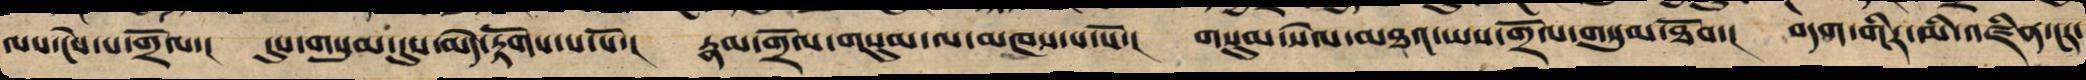ལས་ངེས་པ་གྲོལ་། དུས་གསུམ་དུས་མེད་རྟོགས་པ་པོ་། རྣམ་གྲོལ་གསུམ་ལ་མཁས་པ་པོ་། གསུམ་སེལ་མཐའ་ཡས་གྲོལ་གསུམ་ཐོབ་། བདག་གིར་མི་འཛིན་ངར་
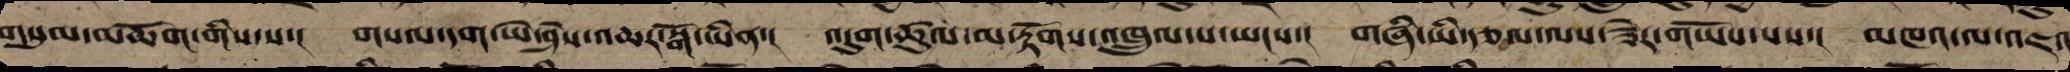གསུམ་མཆོག་གིས་ས་། གསལ་དག་ཡེ་ཤེས་འཆར་སྒོ་ཡིན་། འདུག་ཚུལ་མ་རྟོགས་འཁྲུལ་པ་ཡངས་། གཞི་ཡི་རྩལ་ལས་ཟེར་གཡོས་པས་། མཁའ་ལ་འཇའ
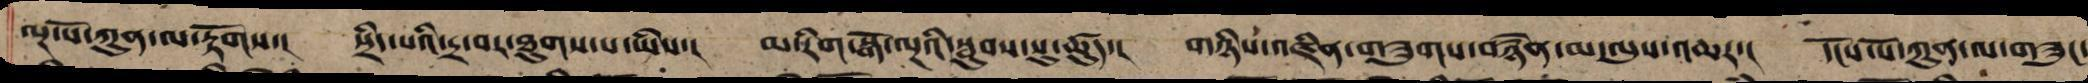ལྔ་པོ་ཀུན་ལ་རྟོགས་། སྲིད་པའི་དྲ་བར་ཐུགས་པ་ཡིས་། མ་རིག་སྒོ་ལྔའི་སྦུབས་སུ་ཚུད་། གཉིས་འཛིན་གཟུགས་བསྙེན་མ་ལུས་འཆར་། དངོས་པོ་ཀུན་ལ་གཟུང་
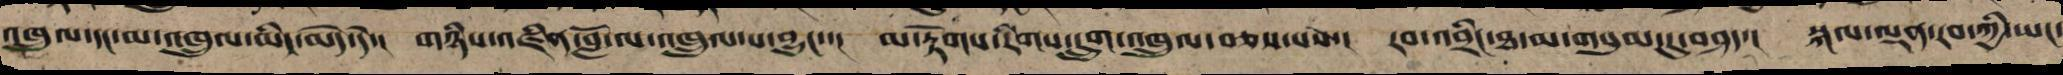འཁྲུལ་དང་མ་འཁྲུལ་མིང་མེད་དེ་། གཉིས་འཛིན་བློ་ལ་འཁྲུལ་པ་བྱུང་་། མ་རྟོགས་རིགས་དྲུག་འཁྲུལ་བཅས་པས་། རབ་འབྲིང་ཐ་མ་གསུམ་དུ་བཤད་། སྐལ་ལྡན་རབ་ཀྱི་ཡང་
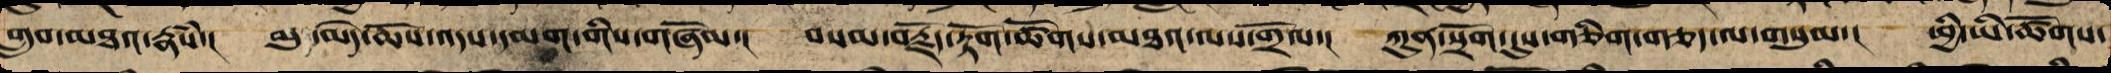གྲུབ་མཐའ་རྣཾས་། མུ་མེད་ཆོས་འདས་དམག་གིས་གཞོམ་། བསམ་བརྗོད་རྟོག་ཚོགས་མཐའ་ལས་གྲོལ་། ཀུན་སྲོག་དུས་གཅིག་གཅད་ལ་གསུམ་། ཕྱི་ཡི་ཚོགས་
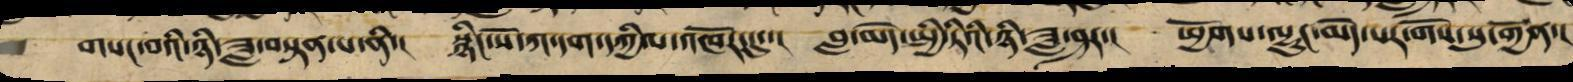གསང་བའི་ཉི་ཟླ་བསྟན་པ་ནི་། སྙིང་པོ་ཀ་དག་དཀྱིལ་འཁོར་དུ་་། བླ་མེད་སྤྱི་ཏིའི་ཉི་ཟླ་ཤར་། ཕྱོགས་ལྷུང་མེད་པར་གོས་སུ་གྱོན་།
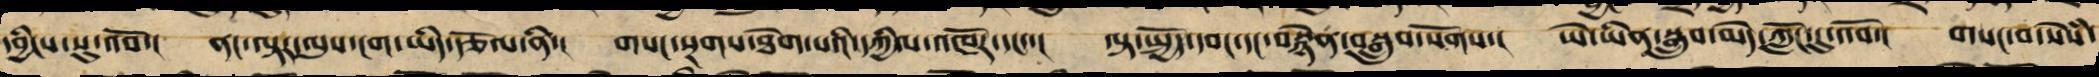དབྱིངས་སུ་འབོ་། ནང་ལྟར་ལུས་ངག་ཡིད་རྩོལ་ནི་། གསང་སྔགས་ཐེག་པའི་དཀྱིལ་འཁོར་དང་་། ལྟ་སྤྱོད་དབང་དང་བསྙེན་བསྒྲུབ་སོགས་། ཡེ་ཡིན་སྒྲུབ་མེད་ཀློང་དུ་འབོ་། གསང་བ་སེཾས་
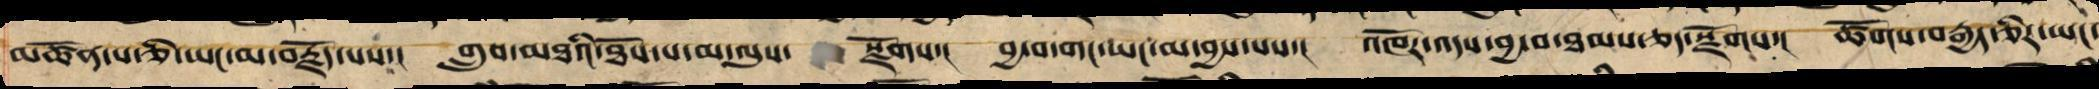མཚོན་པ་ཅི་ཡང་མ་བརྗོད་པས་། གྲུབ་མཐའི་ཐོས་པ་མ་ལུས་ རྫོགས་། བྱ་བ་གང་ཡང་མ་བྱས་པས་། འཁོར་འདས་བྱ་བ་ཐམས་ཅད་རྫོགས་། ཚོགས་བརྒྱད་ཅིར་ཡང་
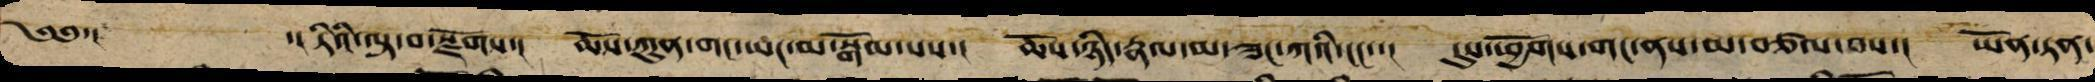༄༅་། ་།ཏིའི་ལྟ་བ་སྫོགས་། ཆོས་ཀུན་གང་ཡང་མ་སྒོམས་པས་། ཆོས་ཉིད་རྣལ་མ་ཟང་ཀའི་ངང་་། དུས་ཕྱོགས་གང་ནས་མ་བཙལ་བས་། ཡོན་ཏན་
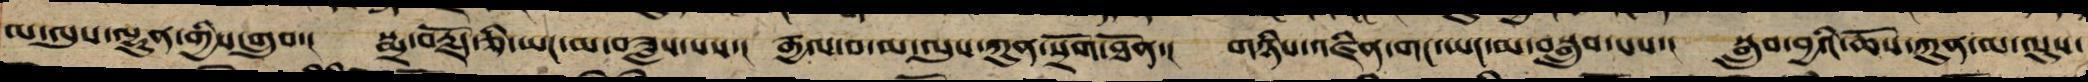མ་ལུས་ལྷུན་གྱིས་གྲུབ་། སྨྲ་བརྗོད་ཅི་ཡང་མ་བཟླས་པས་། རྒྱལ་བ་མ་ལུས་ཀུན་སྲོག་ཐོན་། གཉིས་འཛིན་གང་ཡང་མ་བསྒྲུབས་པས་། བསྒྲུབ་བྱའི་ཆོས་ཀུན་མ་ལུས་
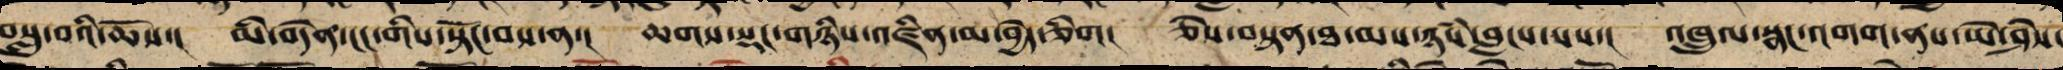བསླུ་བའི་ཆོས་། མི་བདེན་ངང་གིས་སྟོང་པས་ན་། ཆགས་སྡང་གཉིས་འཛིན་མ་བྱེད་ཅིག། ཅེས་བསྟན་ཐམས་ཉཾས་བླངས་པས་། འཁྲུལ་སྣང་འགག་ནས་ཡེ་ཤེས་
